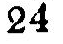24
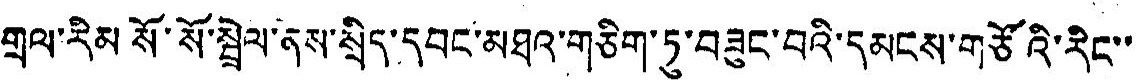གྲལ་རིམ་སོ་སོ་སྦྲེལ་ནས་སྲིད་དབང་མཐའ་གཅིག་ཏུ་བཟུང་བའི་དམངས་གཙོའི་རིང་་
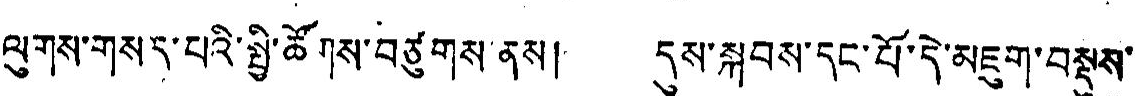ལུགས་གསྲ་པའི་སྤྱི་ཚོགས་བཙུགས་ནས། དུས་སྐབས་དང་པོ་དེ་མཇུག་བསྡུས་
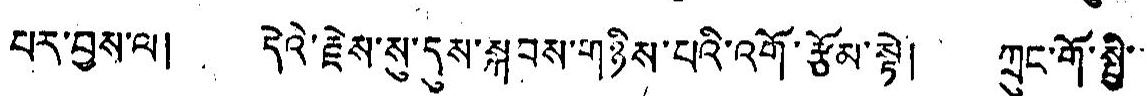པར་བྱས་ལ། དེའི་རྗེས་སུ་དུས་སྐབས་གཉིས་པའི་འགོ་རྩོམ་སྟེ། ཀྲུང་གོ་སྤྱི་
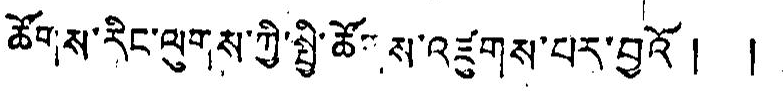ཚོགས་རིང་ལུགས་ཀྱི་སྤྱི་ཚོགས་འཛུགས་པར་བྱའོ ། །
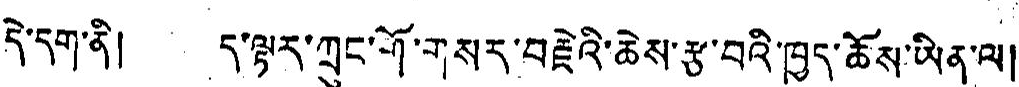དེ་དག་ནི། ད་ལྟར་ཀྲུང་གོ་གསྲ་བརྗེའི་ཆེས་རྩ་བའི་ཁྱད་ཆོས་ཡིན་ལ།
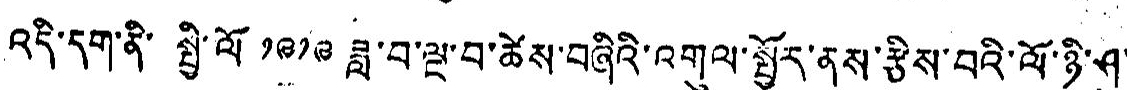འདི་དག་ནི་ སྤྱི་ལོ ༡༩༡༩ ཟླ་བ་ལྔ་བ་ཚེས་བཞིའི་འགུལ་སྤྱོར་ནས་རྩིས་བའི་ལོ་ཉི་ཤུ་
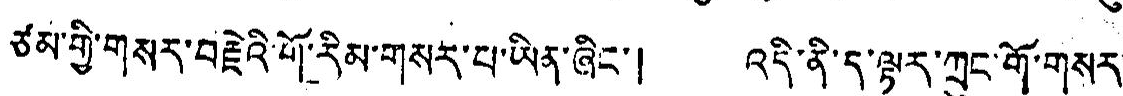ཏམ་གྱི་གསར་བརྗེའི་གོ་རིམ་གསར་པ་ཡིན་ཞིང་། འདི་ནི་ད་ལྟར་ཀྲུང་གོ་གསར་
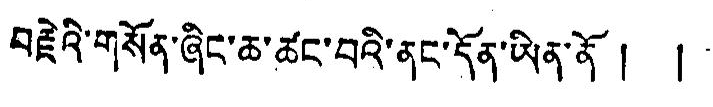བརྗེའི་གསོན་ཞིང་ཆ་ཚང་བའི་ནང་དོན་ཡིན་ནོ ། །
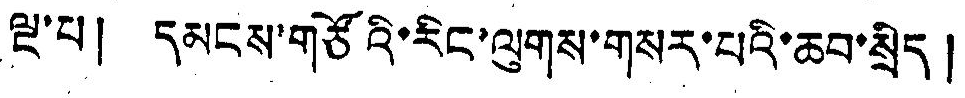ལྔ་པ། དམངས་གཙོའི་རིང་ལུགས་གསྲ་པའི་ཆ་སྲིད།
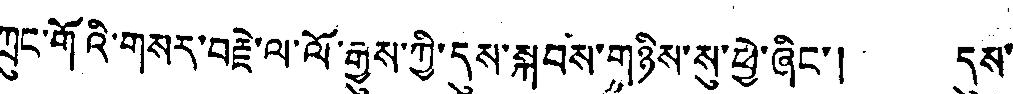ཀྲུང་གོའི་གསར་བརྗེ་ལ་ལོ་རྒྱུས་ཀྱི་དུས་སྐབས་གཉིས་སུ་ཕྱེ་ཞིང་། དུས་
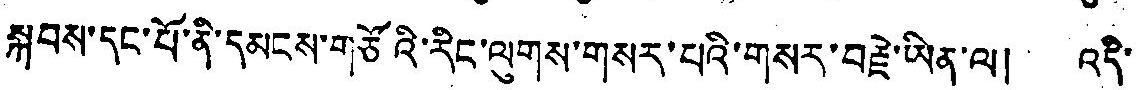སྐབས་དང་པོ་ནི་དམངས་གཙོའི་རིང་ལུགས་གསྲ་པའི་གསར་བརྗེ་ཡིན་ལ། འདི་
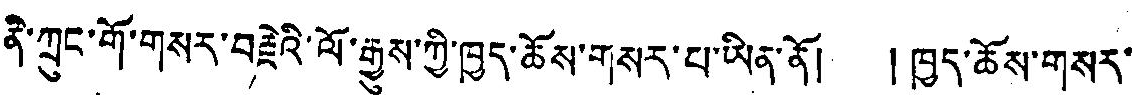ནི་ཀྲུང་གོ་གསར་བརྗེའི་ལོ་རྒྱུས་ཀྱི་ཁྱད་ཆོས་གསར་པ་ཡིན་ནོ། །ཁྱད་ཆོས་གསར་
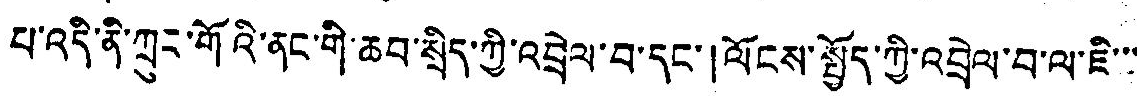པ་འདི་ནི་ཀྲུང་གོའི་ནང་གི་ཆབ་སྲིད་ཀྱི་འབྲེལ་བ་དང་། ལོངས་སྤྱོད་ཀྱི་འབྲེལ་བ་ལ་ཇི་་་
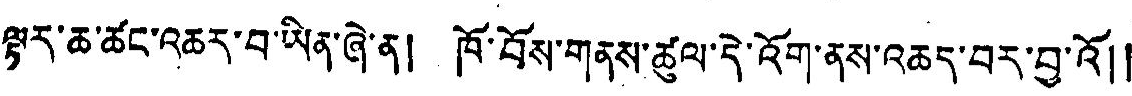ལྟར་ཆ་ཚང་འཆར་བ་ཡིན་ཞེ་ན། ཁོ་བོས་གནས་ཚུལ་དེ་འོག་ནས་འཆད་བར་བྱ་འོ། །
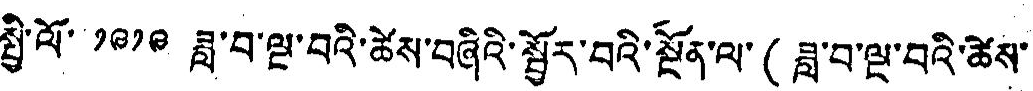སྤྱི་ལོ་ ༡༩༡༩ ཟླ་བ་ལྔ་བའི་ཚེས་བཞིའི་སྦྱོར་བའི་སྔོན་ལ་(ཟླ་བ་ལྔ་བའི་ཚེས་
